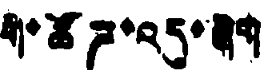གི་ཚོཌ་འདུ་ཞིག
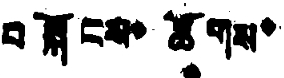བསྐོངས་ཚོགས་
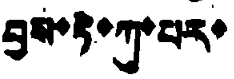བྱས་ཏེ་ཀུ་པར་
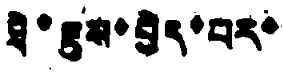ཐེ་ཇུས་བྱེད་པར་
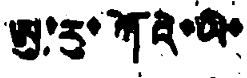ཨུ་རུ་ཀོའི་ཡི་
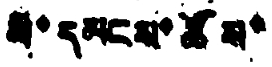མི་དམངས་ཚོས་
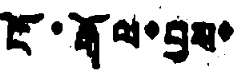ངོ་རྒོལ་བྱས་
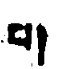པ།
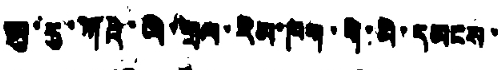ཨུ་རུ་ཀོའེ་ཡི་གྲལ་རིམ་ཁག་གི་མི་དམངས་
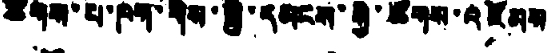ཚོགས་པ་ཀཧག་གིས་སྤྱི་དམངས་ཀྱི་ཚོགས་འཛོམས
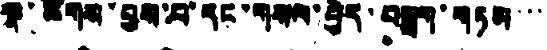སྣ་ཚོགས་བྱས་པ་དང་གསལ་བྱེད་བསྒྲག་གཏམ་་་
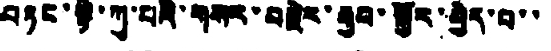བཏང་སྟེ་ཀུ་པའི་གསར་བརྗེར་རྒྱབ་སྐྱོར་བྱེད་པ་་
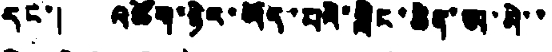དང་། འཆོག་རྙིང་ཡོད་པའི་གླིང་ཆེན་ཨ་མེ་་
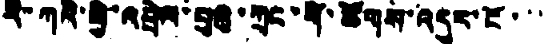རི་ཀིའ་ཕྱི་འབྲེལ་པུའུ་ཀྲང་གི་ཚོགས་འདུར་ངོ་་་
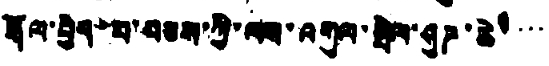རྒོལ་བྱེད་པ་བཅས་ཀྱི་ལས་འགུལ་སྤེལ་ཤུཌ་ཆེ་་་་
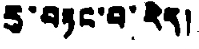རུ་བཏང་བ་རེད།
